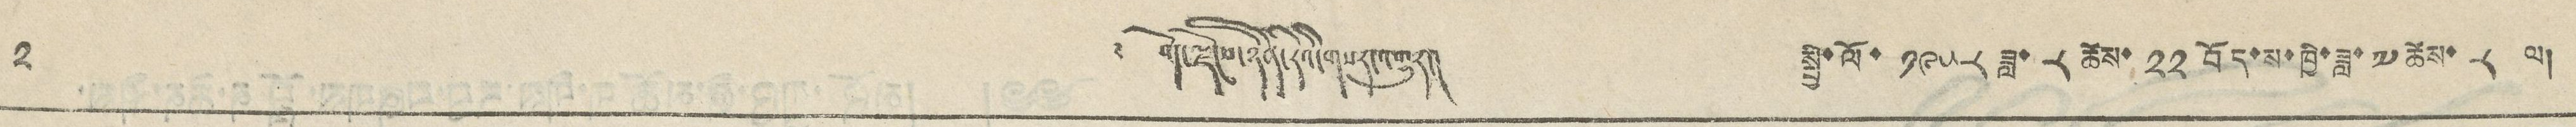༢   ༄༅། བོད་ལྗོངས་ཉིན་རེའི་གསར་འགྱུར། སྤྱི་ལོ་ ༡༩༥༨ ཟླ་ ༨ ཚེས་ ༢༢ བོད་ས་ཁྱི་ཟླ་ ༧ ཚེས་ ༨ ལ།
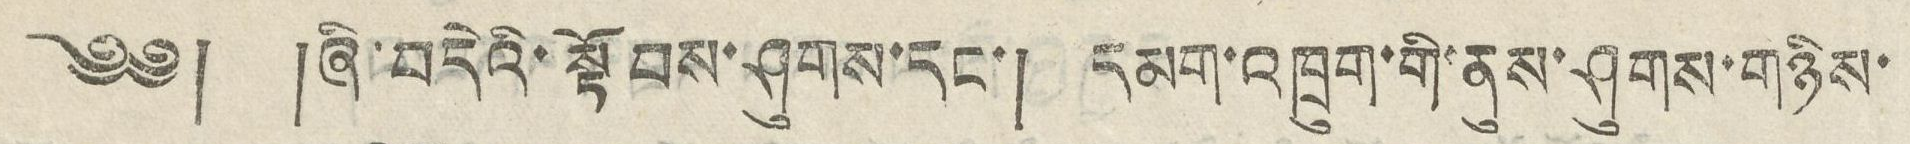༄༅། །ཞི་བདེའི་སྟོབས་ཤུགས་དང་། དམག་འཁྲུག་གི་ནུས་ཤུགས་གཉིས་
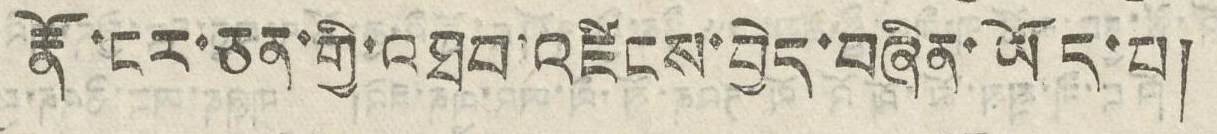རྣོ་ངར་ཅན་གྱི་འཐབ་འཛིངས་བྱེད་བཞིན་ཡོད་པ།
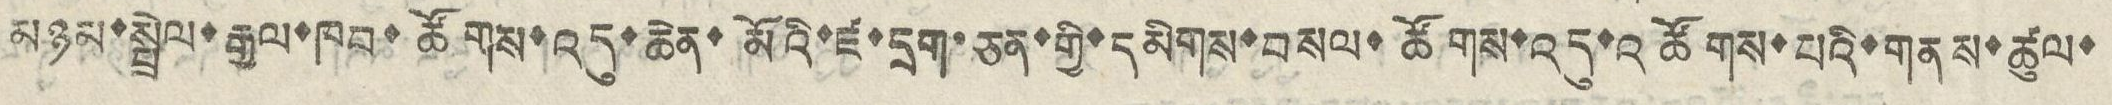མཉམ་སྦྲེལ་རྒྱལ་ཁབ་ཚོགས་འདུ་ཆེན་མོའི་ཛ་དྲག་ཅན་གྱི་དམིགས་བསལ་ཚོགས་འདུ་འཚོགས་པའི་གནས་ཚུལ་
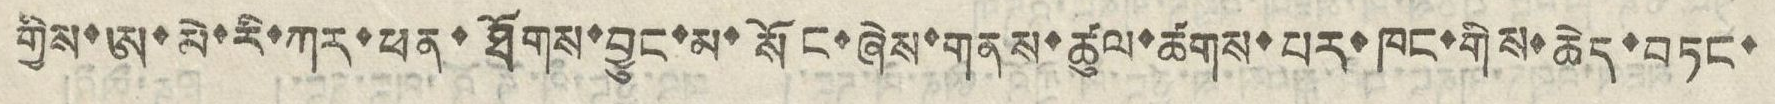གྱིས་ཨ་མེ་རི་ཀར་ཕན་ཐོགས་བྱུང་མ་སོང་ཞེས་གནས་ཚུལ་ཚགས་པར་ཁང་གིས་ཆེད་བཏང་
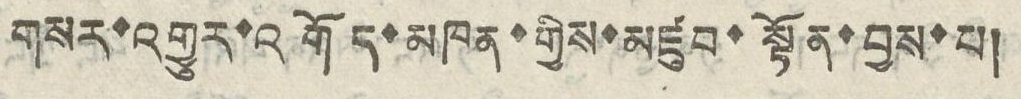གསར་འགྱུར་འགོད་མཁན་གྱིས་མཛུབ་སྟོན་བྱས་པ།
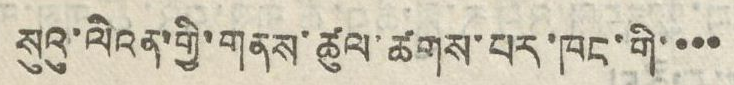སུའུ་ལིའན་གྱི་གནས་ཚུལ་ཚགས་པར་ཁང་གི་་་་
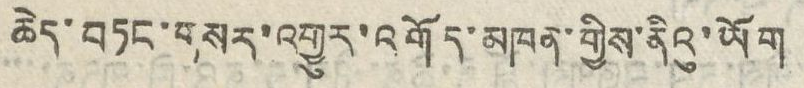ཆེད་བཏང་གསར་འགྱུར་འགོད་མཁན་གྱིས་ནིའུ་ཡོག
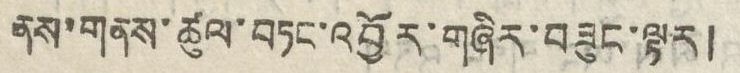ནས་གནས་ཚུལ་བཏང་འབྱོར་གཞིར་བཟུང་ལྟར།
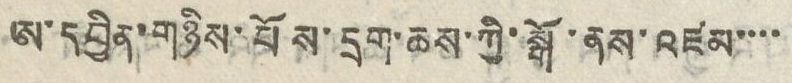ཨ་དབྱིན་གཉིས་པོས་དྲག་ཆས་ཀྱི་སྒོ་ནས་འཛམ་་་་་
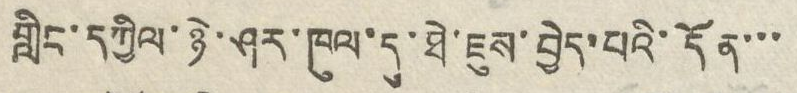གླིང་དཀྱིལ་ཉེ་ཤར་ཁུལ་དུ་ཐེ་ཇུས་བྱེད་པའི་དོན་་་
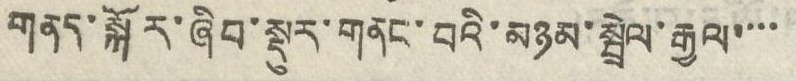གནད་སྐོར་ཞིབ་སྡུར་གནང་བའི་མཉམ་སྦྲེལ་རྒྱལ་་་་
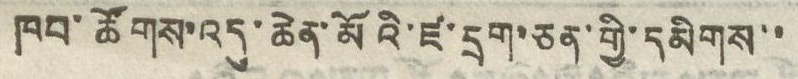ཁབ་ཚོགས་འདུ་ཆེན་མོའི་ཛ་དྲག་ཅན་གྱི་དམིགས་་
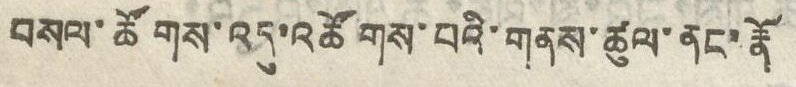བསལ་ཚོགས་འདུ་འཚོགས་པའི་གནས་ཚུལ་ནང་རྣོ
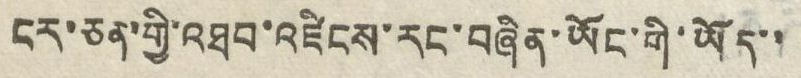ངར་ཅན་གྱི་འཐབ་འཛིངས་རང་བཞིན་ཡོང་གི་ཡོད་་
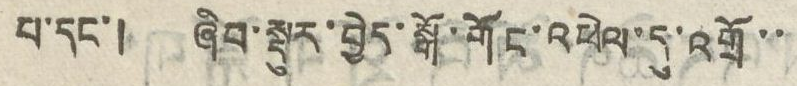པ་དང་། ཞིབ་སྡུར་བྱེད་སྒོ་གོང་འཕེལ་དུ་འགྲོ་་
